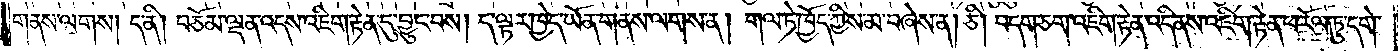གནས་ལགས། ད་ནི། བཅོམ་ལྡན་འདས་འཇིག་རྟེན་དུ་བྱུང་བས། ད་ལྟར་ཁྱེད་ཡོན་གནས་ལགས་ན། གལ་ཏེ་ཁྱོད་ཀྱིས་མ་བཞེས་ན། ཅི། བདག་ཅག་འཇིག་རྟེན་འདི་ནས་འཇིག་རྟེན་ཕ་རོལ་ཏུ་དགེ་
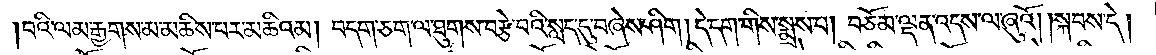།བའི་ལམ་རྒྱགས་མ་མཆིས་པར་མཆིའམ། བདག་ཅག་ལ་ཐུགས་བརྩེ་བའི་སླད་དུ་བཞེས་ཤིག །དེ་དག་གིས་སྨྲས་པ། བཅོམ་ལྡན་འདས་ལ་ཞུའོ། །སྐབས་དེ།
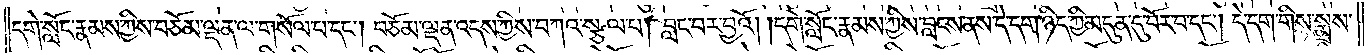དགེ་སློང་རྣམས་ཀྱིས་བཅོམ་ལྡན་ལ་གསོལ་པ་དང༌། བཅོམ་ལྡན་འདས་ཀྱིས་བཀའ་སྩལ་པ། བླང་བར་བྱའོ། །དགེ་སློང་རྣམས་ཀྱིས་བླངས་ནས་དེ་དག་ཉིད་ཀྱི་མདུན་དུ་བོར་བ་དང༌། དེ་དག་གིས་སྨྲས་
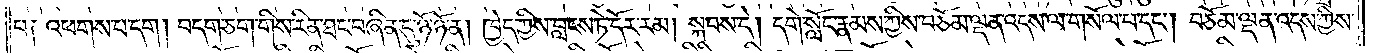པ། འཕགས་པ་དག །བདག་ཅག་གིས་རིན་ཐང་བཞིན་དུ་ཉོ་ཉོ་ན། ཁྱེད་ཀྱིས་བླངས་ཏེ་དོར་རམ། སྐབས་དེ། དགེ་སློང་རྣམས་ཀྱིས་བཅོམ་ལྡན་འདས་ལ་གསོལ་པ་དང༌། བཅོམ་ལྡན་འདས་ཀྱིས་
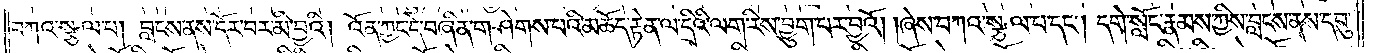བཀའ་སྩལ་པ། བླངས་ནས་དོར་བར་མི་བྱའི། འོན་ཀྱང་དེ་བཞིན་གཤེགས་པའི་མཆོད་རྟེན་ལ་དྲིའི་ལག་རིས་བྱུག་པར་བྱའོ། །ཞེས་བཀའ་སྩལ་པ་དང༌། དགེ་སློང་རྣམས་ཀྱིས་བླངས་ནས་དབུ་
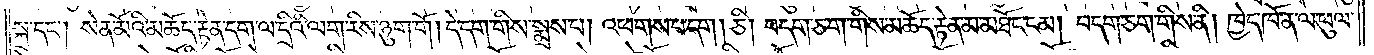སྐྲ་དང༌། སེན་མོའི་མཆོད་རྟེན་དག་ལ་དྲིའི་ལག་རིས་ཉུག་གོ །དེ་དག་གིས་སྨྲས་པ། འཕགས་པ་དག །ཅི། བདག་ཅག་གིས་མཆོད་རྟེན་མ་མཐོང་ངམ། བདག་ཅག་གིས་ནི། ཁྱེད་ཁོ་ན་ལ་ཕུལ་
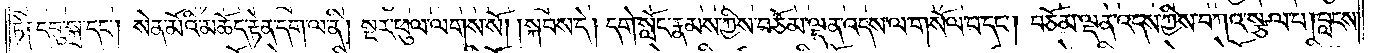ཏེ། དབུ་སྐྲ་དང༌། སེན་མོའི་མཆོད་རྟེན་དག་ལ་ནི། སྔར་ཕུལ་ལགས་སོ། །སྐབས་དེ། དགེ་སློང་རྣམས་ཀྱིས་བཅོམ་ལྡན་འདས་ལ་གསོལ་པ་དང༌། བཅོམ་ལྡན་འདས་ཀྱིས་བཀའ་སྩལ་པ། བླངས་
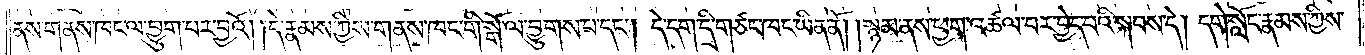ནས་གནས་ཁང་ལ་བྱུག་པར་བྱའོ། །དེ་རྣམས་ཀྱིས་གནས་ཁང་གི་སྒོ་ལ་བྱུགས་པ་དང༌། དེ་དག་དྲི་གཙང་ཁང་ཡིན་ནོ། །སྙམ་ནས་ཕྱག་འཚལ་བར་བྱེད་པའི་སྐབས་དེ། དགེ་སློང་རྣམས་ཀྱིས་
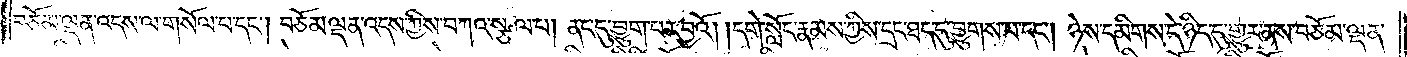བཅོམ་ལྡན་འདས་ལ་གསོལ་པ་དང༌། བཅོམ་ལྡན་འདས་ཀྱིས་བཀའ་སྩལ་པ། ནང་དུ་བྱུག་པར་བྱའོ། །དགེ་སློང་རྣམས་ཀྱིས་དྲང་ཐད་དུ་བྱུགས་པ་དང༌། ཉེས་དམིགས་དེ་ཉིད་དུ་གྱུར་ནས་བཅོམ་ལྡན་
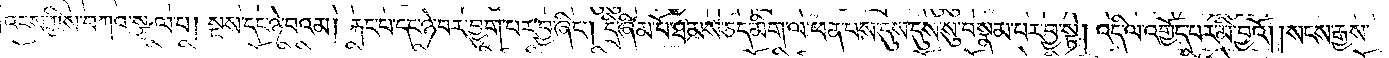འདས་ཀྱིས་བཀའ་སྩལ་པ། སྔས་དང་ཉེ་བའམ། རྐང་པ་དང་ཉེ་བར་བྱུག་པར་བྱ་ཞིང༌། དྲི་ཞིམ་པོ་ཐམས་ཅད་མིག་ལ་ཕན་པས་དུས་དུས་སུ་བསྣམ་པར་བྱ་སྟེ། འདི་ལ་འགྱོད་པར་མི་བྱའོ། །སངས་རྒྱས་
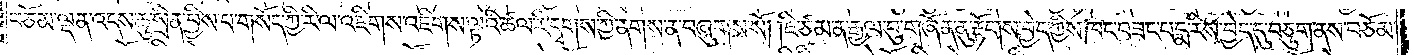བཅོམ་ལྡན་འདས་ཆུ་སྲིན་བྱིས་པ་གསོད་ཀྱི་རི་ལ་འཇིགས་འཇིགས་ལྟའི་ཚལ་རི་དྭགས་ཀྱི་ནགས་ན་བཞུགས་སོ། །ཇི་ཙམ་ན་རྒྱལ་བུ་གཞོན་ནུ་རྟོགས་བྱེད་ཀྱིས་ཁང་བཟང་པདྨ་རིས་བྱེད་དུ་བཅུག་ནས་བཅོམ་
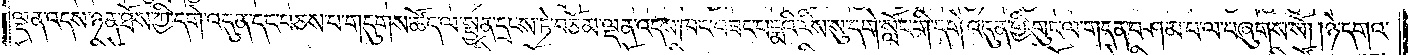ལྡན་འདས་ཉན་ཐོས་ཀྱི་དགེ་འདུན་དང་བཅས་པ་གདུགས་ཚོད་ལ་སྤྱན་དྲངས་ཏེ་བཅོམ་ལྡན་འདས་ཁང་བཟང་པདྨའི་རིས་སུ་དགེ་སློང་གི་དགེ་འདུན་གྱི་གུང་ལ་གདན་བཤམ་པ་ལ་བཞུགས་སོ། །ཉེ་དགའ་
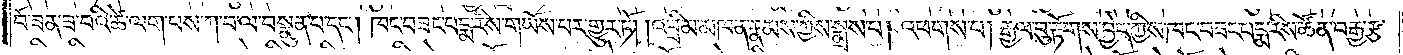བོ་ཟན་ཟ་བའི་ཚེ་ལག་པས་ཀ་བ་ལ་བསྣུན་པ་དང༌། ཁང་བཟང་པདྨ་རིས་གཡོས་པར་གྱུར་ཏོ། །འབྲིམ་མཁན་རྣམས་ཀྱིས་སྨྲས་པ། འཕགས་པ། རྒྱལ་བུ་རྟོགས་བྱེད་ཀྱིས་ཁང་བཟང་པདྨ་རིས་ཚོན་བརྒྱ་རྩ་
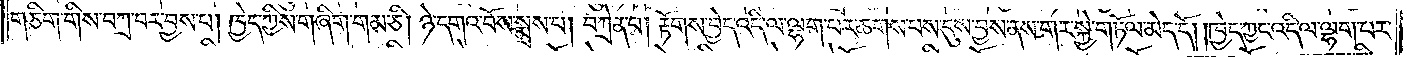གཅིག་གིས་བཀྲ་བར་བྱས་པ། ཁྱེད་ཀྱིས་གཞིག་གམ་ཅི། ཉེ་དགའ་བོས་སྨྲས་པ། བཀྲེན་པ། རྟོགས་བྱེད་འདི་ལ་ལྷག་པར་ཆགས་པས་དུས་བྱས་ནས་གར་སྐྱེ་གཏོལ་མེད་དོ། །ཁྱེད་ཀྱང་འདི་ལ་ལྷག་པར་
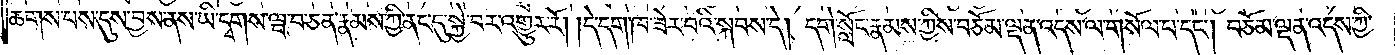ཆགས་པས་དུས་བྱས་ནས་ཡི་དྭགས་ཝ་བ་ཅན་རྣམས་ཀྱི་ནང་དུ་སྐྱེ་བར་འགྱུར་རོ། །དེ་དག་ཁ་ཟེར་བའི་སྐབས་དེ། དགེ་སློང་རྣམས་ཀྱིས་བཅོམ་ལྡན་འདས་ལ་གསོལ་པ་དང༌། བཅོམ་ལྡན་འདས་ཀྱི་
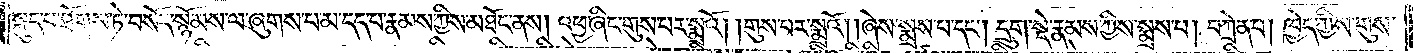སྐུད་པ་ཐོགས་ཏེ་བསོད་སྙོམས་ལ་ཞུགས་པ་མ་དད་པ་རྣམས་ཀྱིས་མཐོང་ནས། འཕྱ་ཞིང་གུས་པར་སྨྲའོ། །གུས་པར་སྨྲའོ། །ཞེས་སྨྲས་པ་དང༌། དྲུག་སྡེ་རྣམས་ཀྱིས་སྨྲས་པ། བཀྲེན་པ། ཁྱེད་ཀྱིས་གུས་
